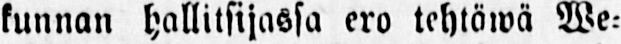kunnan hallitsijassa ero tehtäwä We-
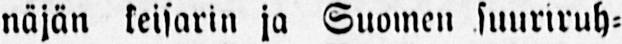näjän keisarin ja Suomen suuriruh-
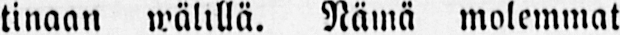tinaan wälillä. Nämä molemmat
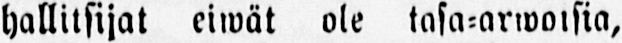hallitsijat eiwät ole tasa-arwoisia,
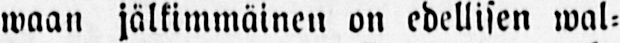waan jälkimmäinen on edellisen wal-
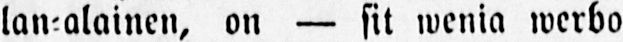lan-alainen, on — sit wenia werbo
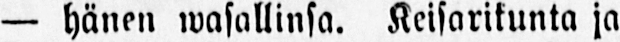— hänen wasallinsa. Keisarikunta ja
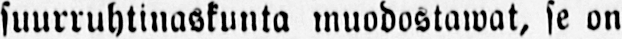suurruhtinaskunta muodostawat, se on
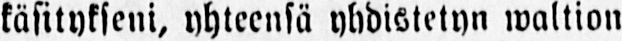käsitykseni, yhteensä yhdistetyn waltion,
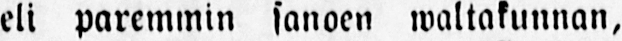eli paremmin sanoen waltakunnan,
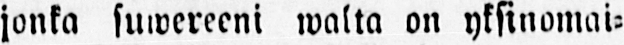jonka suwereeni walta on yksinomai-
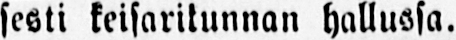sesti keisarikunnan hallussa.
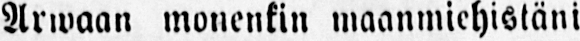Arwaan monenkin maanmiehistäni
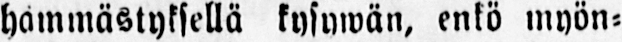hämmästyksellä kysywän, enkö myön-
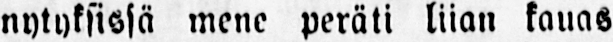nytyksissä mene peräti liian kauas
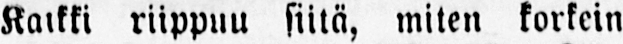Kaikki riippuu siitä, miten korkein
